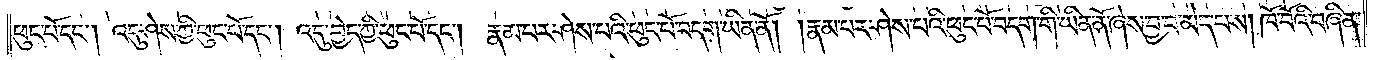ཕུང་པོ་དང༌། འདུ་ཤེས་ཀྱི་ཕུང་པོ་དང༌། འདུ་བྱེད་ཀྱི་ཕུང་པོ་དང༌། རྣམ་པར་ཤེས་པའི་ཕུང་པོ་བདག་ཡིན་ནོ། །རྣམ་པར་ཤེས་པའི་ཕུང་པོ་བདག་གི་ཡིན་ནོ་ཞེས་བྱ་བ་མེད་པས། ཁོ་བོའི་བཞིན་
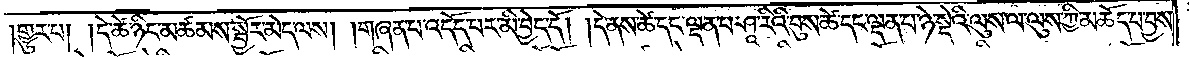གྱུར་པ། །དེ་ཚེ་ཉིང་མཚམས་སྦྱོར་མེད་ལས། །གཞན་པ་འདོད་པར་མི་བྱེད་དོ། །དེ་ནས་ཚེ་དང་ལྡན་པ་ཤཱ་རིའི་བུས་ཚེ་དང་ལྡན་པ་ཉེ་སྡེའི་ལུས་ལ་ལུས་ཀྱི་མཆོད་པ་བྱས་
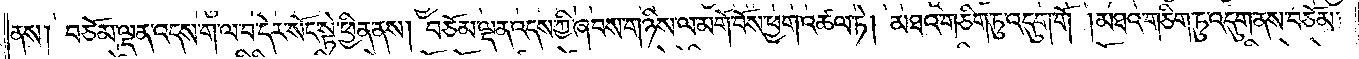ནས། བཅོམ་ལྡན་འདས་ག་ལ་བ་དེར་སོང་སྟེ་ཕྱིན་ནས། བཅོམ་ལྡན་འདས་ཀྱི་ཞབས་གཉིས་ལ་མགོ་བོས་ཕྱག་འཚལ་ཏེ། མཐའ་གཅིག་ཏུ་འདུག་གོ །མཐའ་གཅིག་ཏུ་འདུག་ནས་བཅོམ་
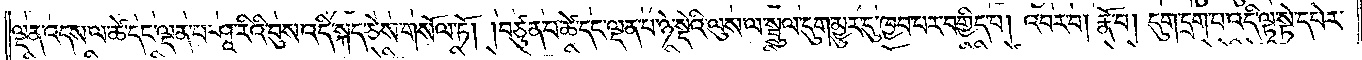ལྡན་འདས་ལ་ཚེ་དང་ལྡན་པ་ཤཱ་རིའི་བུས་འདི་སྐད་ཅེས་གསོལ་ཏོ། །བཙུན་པ་ཚེ་དང་ལྡན་པ་ཉེ་སྡེའི་ལུས་ལ་སྦྲུལ་དུག་མྱུར་དུ་ཁྱབ་པར་བགྱིད་པ། འབར་བ། རྣོ་བ། དུག་དྲག་པ་འདི་ལྟ་སྟེ་དཔེར་
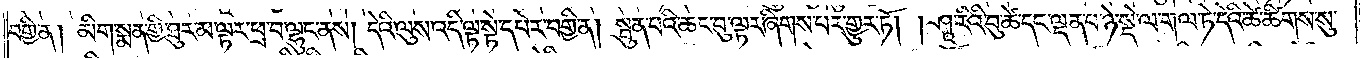བགྱི་ན། མིག་སྨན་གྱི་ཐུར་མ་ལྟར་ཕྲ་བ་ལྷུང་ནས། དེའི་ལུས་འདི་ལྟ་སྟེ་དཔེར་བགྱི་ན། སྦུན་པའི་ཆང་བུ་ལྟར་ཞིགས་པར་གྱུར་ཏོ། །ཤཱ་རིའི་བུ་ཚེ་དང་ལྡན་པ་ཉེ་སྡེ་ལ་གལ་ཏེ་དེའི་ཚེ་ཚིགས་སུ་
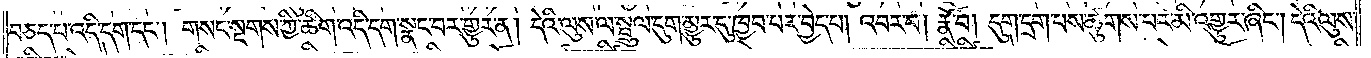བཅད་པ་འདི་དག་དང༌། གསང་སྔགས་ཀྱི་ཚིག་འདི་དག་སྣང་བར་གྱུར་ན། དེའི་ལུས་ལ་སྦྲུལ་དུག་མྱུར་དུ་ཁྱབ་པར་བྱེད་པ། འབར་བ། རྣོ་བ། དུག་དྲག་པས་ཚུགས་པར་མི་འགྱུར་ཞིང༌། དེའི་ལུས་
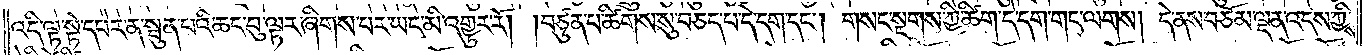འདི་ལྟ་སྟེ་དཔེར་ན་སྦུན་པའི་ཆང་བུ་ལྟར་ཞིགས་པར་ཡང་མི་འགྱུར་རོ། །བཙུན་པ་ཚིགས་སུ་བཅད་པ་དེ་དག་དང༌། གསང་སྔགས་ཀྱི་ཚིག་དེ་དག་གང་ལགས། དེ་ནས་བཅོམ་ལྡན་འདས་ཀྱིས་
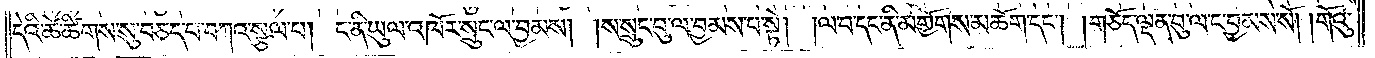དེའི་ཚེ་ཚིགས་སུ་བཅད་པ་བཀའ་སྩལ་པ། ང་ནི་ཡུལ་འཁོར་སྲུང་ལ་བྱམས། །ས་སྲུང་བུ་ལ་བྱམས་པ་སྟེ། །ལ་བ་དང་ནི་མགྱོགས་མཆོག་དང༌། །གཅོད་ལྡན་བུ་ལ་ང་བྱམས་སོ། །གོའུ་
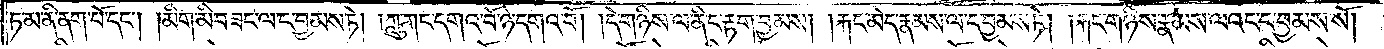ཏ་མ་ནི་ནག་པོ་དང༌། །མིག་མི་བཟང་ལ་ང་བྱམས་ཏེ། །ཀླུ་གང་དགའ་བོ་ཉེ་དགའ་བོ། །དེ་གཉིས་ལ་ནི་ང་རྟག་བྱམས། །རྐང་མེད་རྣམས་ལ་ང་བྱམས་ཏེ། །རྐང་གཉིས་རྣམས་ལའང་ང་བྱམས་སོ༎
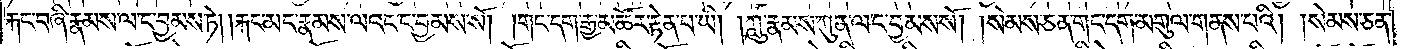རྐང་བཞི་རྣམས་ལ་ང་བྱམས་ཏེ། །རྐང་མང་རྣམས་ལའང་ང་བྱམས་སོ། །གང་དག་རྒྱ་མཚོར་རྟེན་པ་ཡི། །ཀླུ་རྣམས་ཀུན་ལ་ང་བྱམས་སོ། །སེམས་ཅན་གང་དག་མགུལ་གནས་པའི། །སེམས་ཅན་
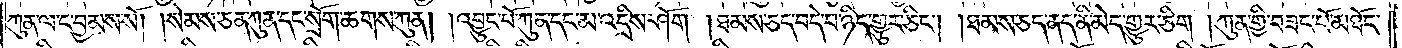ཀུན་ལ་ང་བྱམས་སོ། །སེམས་ཅན་ཀུན་དང་སྲོག་ཆགས་ཀུན། །འབྱུང་པོ་ཀུན་དང་མ་འདྲིས་ཤོག །ཐམས་ཅད་བདེ་བ་ཉིད་གྱུར་ཅིང༌། །ཐམས་ཅད་ནད་ནི་མེད་གྱུར་ཅིག །ཀུན་གྱི་བཟང་པོ་མཐོང་
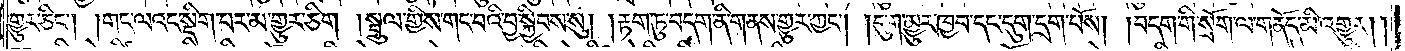གྱུར་ཅིང༌། །གང་ལའང་སྡིག་པར་མ་གྱུར་ཅིག །སྦྲུལ་གྱིས་གང་བའི་བྱ་སྐྱིབས་སུ། །རྟག་ཏུ་བདག་གི་གནས་གྱུར་ཀྱང༌། །དུག་མྱུར་ཁྱབ་དང་དུག་དྲག་པོས། །བདག་གི་སྲོག་ལ་གནོད་མི་འགྱུར། །
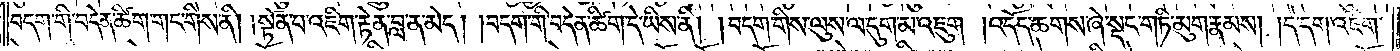བདག་གི་བདེན་ཚིག་གང་གིས་ནི། །སྟོན་པ་འཇིག་རྟེན་བླ་ན་མེད། །བདག་གི་བདེན་ཚིག་དེ་ཡིས་ནི། །བདག་གིས་ལུས་ལ་དུག་མ་འཇུག །འདོད་ཆགས་ཞེ་སྡང་གཏི་མུག་རྣམས། །དེ་དག་འཇིག་
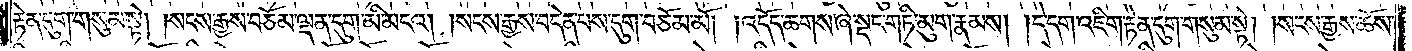རྟེན་དུག་གསུམ་སྟེ། །སངས་རྒྱས་བཅོམ་ལྡན་དུག་མི་མངའ། །སངས་རྒྱས་བདེན་པས་དུག་བཅོམ་མོ། །འདོད་ཆགས་ཞེ་སྡང་གཏི་མུག་རྣམས། །དེ་དག་འཇིག་རྟེན་དུག་གསུམ་སྟེ། །སངས་རྒྱས་ཆོས་
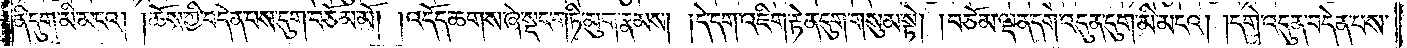ནི་དུག་མི་མངའ། །ཆོས་ཀྱི་བདེན་པས་དུག་བཅོམ་མོ། །འདོད་ཆགས་ཞེ་སྡང་གཏི་མུག་རྣམས། །དེ་དག་འཇིག་རྟེན་དུག་གསུམ་སྟེ། །བཅོམ་ལྡན་དགེ་འདུན་དུག་མི་མངའ། །དགེ་འདུན་བདེན་པས་
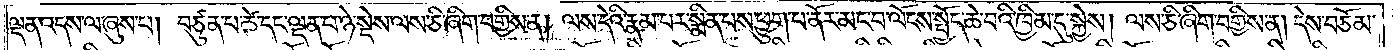ལྡན་འདས་ལ་ཞུས་པ། བཙུན་པ་ཚེ་དང་ལྡན་པ་ཉེ་སྡེས་ལས་ཅི་ཞིག་བགྱིས་ན། ལས་དེའི་རྣམ་པར་སྨིན་པས་ཕྱུག་པ་ནོར་མང་བ་ལོངས་སྤྱོད་ཆེ་བའི་ཁྱིམ་དུ་སྐྱེས། ལས་ཅི་ཞིག་བགྱིས་ན། དེས་བཅོམ་
